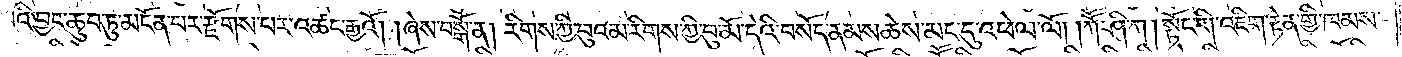པའི་བྱང་ཆུབ་ཏུ་མངོན་པར་རྫོགས་པར་འཚང་རྒྱའོ། །ཞེས་བསྒོ་ན། རིགས་ཀྱི་བུའམ་རིགས་ཀྱི་བུ་མོ་དེའི་བསོད་ནམས་ཆེས་མང་དུ་འཕེལ་ལོ། །ཀཽ་ཤི་ཀ། སྟོང་གི་འཇིག་རྟེན་གྱི་ཁམས་
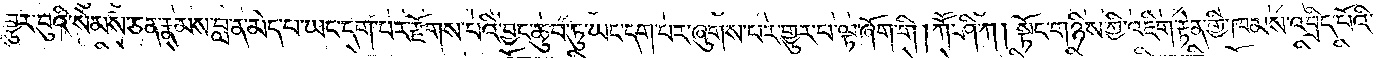བྱུར་བུའི་སེམས་ཅན་རྣམས་བླ་ན་མེད་པ་ཡང་དག་པར་རྫོགས་པའི་བྱང་ཆུབ་ཏུ་ཡང་དག་པར་ཞུགས་པར་གྱུར་པ་ལྟ་ཞོག་གི །ཀཽ་ཤི་ཀ། སྟོང་གཉིས་ཀྱི་འཇིག་རྟེན་གྱི་ཁམས་འབྲིང་པོའི་
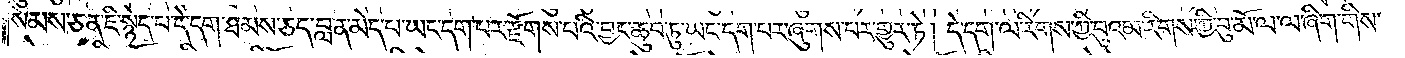སེམས་ཅན་ཇི་སྙེད་པ་དེ་དག་ཐམས་ཅད་བླ་ན་མེད་པ་ཡང་དག་པར་རྫོགས་པའི་བྱང་ཆུབ་ཏུ་ཡང་དག་པར་ཞུགས་པར་གྱུར་ཏེ། དེ་དག་ལ་རིགས་ཀྱི་བུའམ་རིགས་ཀྱི་བུ་མོ་ལ་ལ་ཞིག་གིས་
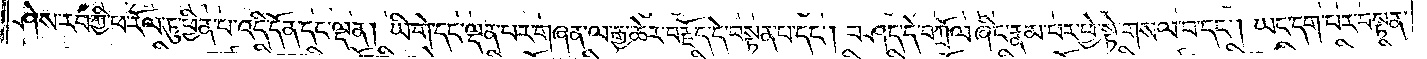ཤེས་རབ་ཀྱི་ཕ་རོལ་ཏུ་ཕྱིན་པ་འདི་དོན་དང་ལྡན། ཡི་གེ་དང་ལྡན་པར་གཞན་ལ་རྒྱ་ཆེར་བརྗོད་དེ་བསྟན་པ་དང༌། བཤད་དེ་བཀྲོལ་ཞིང་རྣམ་པར་ཕྱེ་སྟེ་གསལ་བ་དང༌། ཡང་དག་པར་བསྟན་
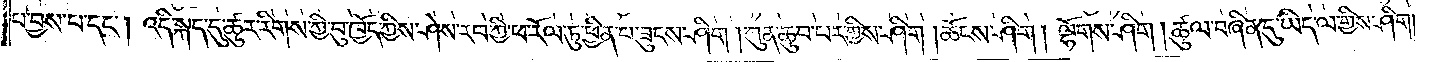པ་བྱས་པ་དང༌། འདི་སྐད་དུ་ཚུར་རིགས་ཀྱི་བུ་ཁྱོད་ཀྱིས་ཤེས་རབ་ཀྱི་ཕ་རོལ་ཏུ་ཕྱིན་པ་ཟུངས་ཤིག །ཀུན་ཆུབ་པར་གྱིས་ཤིག །ཆོངས་ཤིག། ལྷོགས་ཤིག །ཚུལ་བཞིན་དུ་ཡིད་ལ་གྱིས་ཤིག །
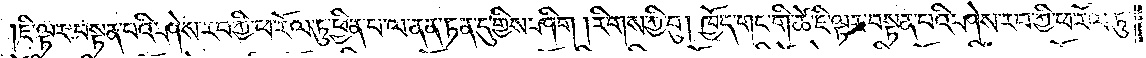ཇི་ལྟར་བསྟན་པའི་ཤེས་རབ་ཀྱི་ཕ་རོལ་ཏུ་ཕྱིན་པ་ལ་ནན་ཏན་དུ་གྱིས་ཤིག །རིགས་ཀྱི་བུ། ཁྱོད་གང་གི་ཚེ་ཇི་ལྟར་བསྟན་པའི་ཤེས་རབ་ཀྱི་ཕ་རོལ་ཏུ་
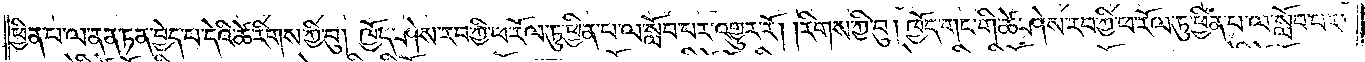ཕྱིན་པ་ལ་ནན་ཏན་བྱེད་པ་དེའི་ཚེ་རིགས་ཀྱི་བུ། ཁྱོད་ཤེས་རབ་ཀྱི་ཕ་རོལ་ཏུ་ཕྱིན་པ་ལ་སློབ་པར་འགྱུར་རོ། །རིགས་ཀྱི་བུ། ཁྱོད་གང་གི་ཚེ་ཤེས་རབ་ཀྱི་ཕ་རོལ་ཏུ་ཕྱིན་པ་ལ་སློབ་པར་
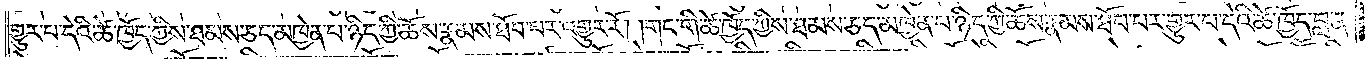གྱུར་པ་དེའི་ཚེ་ཁྱོད་ཀྱིས་ཐམས་ཅད་མཁྱེན་པ་ཉིད་ཀྱི་ཆོས་རྣམས་ཐོབ་པར་འགྱུར་རོ། །གང་གི་ཚེ་ཁྱོད་ཀྱིས་ཐམས་ཅད་མཁྱེན་པ་ཉིད་ཀྱི་ཆོས་རྣམས་ཐོབ་པར་གྱུར་པ་དེའི་ཚེ་ཁྱོད་བླ་ན་
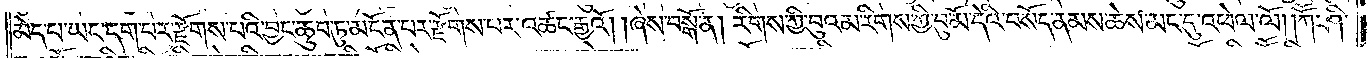མེད་པ་ཡང་དག་པར་རྫོགས་པའི་བྱང་ཆུབ་ཏུ་མངོན་པར་རྫོགས་པར་འཚང་རྒྱའོ། །ཞེས་བསྒོ་ན། རིགས་ཀྱི་བུའམ་རིགས་ཀྱི་བུ་མོ་དེའི་བསོད་ནམས་ཆེས་མང་དུ་འཕེལ་ལོ། །ཀཽ་ཤི་
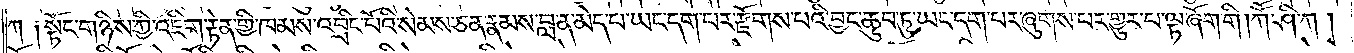ཀ༑ སྟོང་གཉིས་ཀྱི་འཇིག་རྟེན་གྱི་ཁམས་འབྲིང་པོའི་སེམས་ཅན་རྣམས་བླ་ན་མེད་པ་ཡང་དག་པར་རྫོགས་པའི་བྱང་ཆུབ་ཏུ་ཡང་དག་པར་ཞུགས་པར་གྱུར་པ་ལྟ་ཞོག་གི །ཀཽ་ཤི་ཀ།
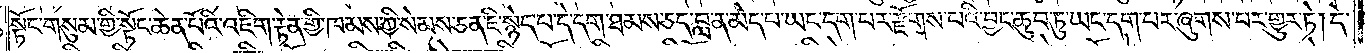སྟོང་གསུམ་གྱི་སྟོང་ཆེན་པོའི་འཇིག་རྟེན་གྱི་ཁམས་ཀྱི་སེམས་ཅན་ཇི་སྙེད་པ་དེ་དག་ཐམས་ཅད་བླ་ན་མེད་པ་ཡང་དག་པར་རྫོགས་པའི་བྱང་ཆུབ་ཏུ་ཡང་དག་པར་ཞུགས་པར་གྱུར་ཏེ། དེ་
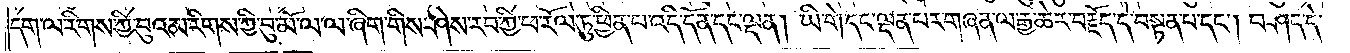དག་ལ་རིགས་ཀྱི་བུའམ་རིགས་ཀྱི་བུ་མོ་ལ་ལ་ཞིག་གིས་ཤེས་རབ་ཀྱི་ཕ་རོལ་ཏུ་ཕྱིན་པ་འདི་དོན་དང་ལྡན། ཡི་གེ་དང་ལྡན་པར་གཞན་ལ་རྒྱ་ཆེར་བརྗོད་དེ་བསྟན་པ་དང༌། བཤད་དེ་
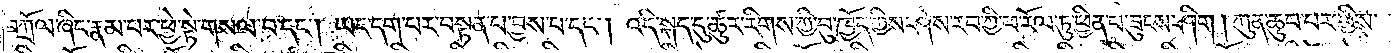བཀྲོལ་ཞིང་རྣམ་པར་ཕྱེ་སྟེ་གསལ་བ་དང༌། ཡང་དག་པར་བསྟན་པ་བྱས་པ་དང༌། འདི་སྐད་དུ་ཚུར་རིགས་ཀྱི་བུ་ཁྱོད་ཀྱིས་ཤེས་རབ་ཀྱི་ཕ་རོལ་ཏུ་ཕྱིན་པ་ཟུངས་ཤིག །ཀུན་ཆུབ་པར་གྱིས་
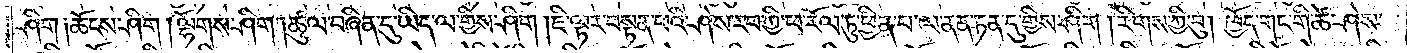ཤིག་༑ཆོངས་ཤིག། །ལྷོགས་ཤིག། །ཚུལ་བཞིན་དུ་ཡིད་ལ་གྱིས་ཤིག །ཇི་ལྟར་བསྟན་པའི་ཤེས་རབ་ཀྱི་ཕ་རོལ་ཏུ་ཕྱིན་པ་ལ་ནན་ཏན་དུ་གྱིས་ཤིག །རིགས་ཀྱི་བུ། ཁྱོད་གང་གི་ཚེ་ཤེས་
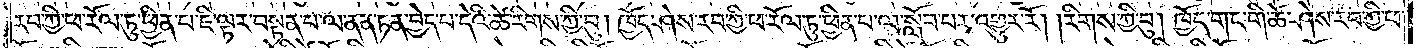རབ་ཀྱི་ཕ་རོལ་ཏུ་ཕྱིན་པ་ཇི་ལྟར་བསྟན་པ་ལ་ནན་ཏན་བྱེད་པ་དེའི་ཚེ་རིགས་ཀྱི་བུ། ཁྱོད་ཤེས་རབ་ཀྱི་ཕ་རོལ་ཏུ་ཕྱིན་པ་ལ་སློབ་པར་འགྱུར་རོ། །རིགས་ཀྱི་བུ། ཁྱོད་གང་གི་ཚེ་ཤེས་རབ་ཀྱི་ཕ་
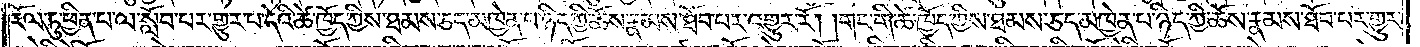རོལ་ཏུ་ཕྱིན་པ་ལ་སློབ་པར་གྱུར་པ་དེའི་ཚེ་ཁྱོད་ཀྱིས་ཐམས་ཅད་མཁྱེན་པ་ཉིད་ཀྱི་ཆོས་རྣམས་ཐོབ་པར་འགྱུར་རོ། །གང་གི་ཚེ་ཁྱོད་ཀྱིས་ཐམས་ཅད་མཁྱེན་པ་ཉིད་ཀྱི་ཆོས་རྣམས་ཐོབ་པར་གྱུར་
